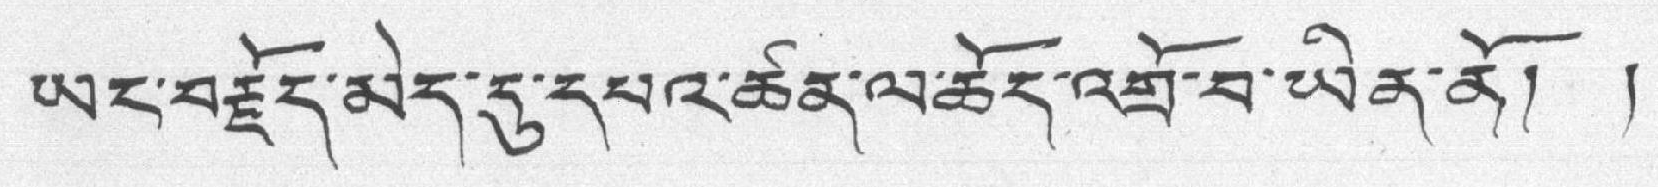ཡང་བརྗོད་མེད་དུ་དཔའ་ཚན་ལ་ཆོད་འགྲོ་བ་ཡིན་ནོ། །
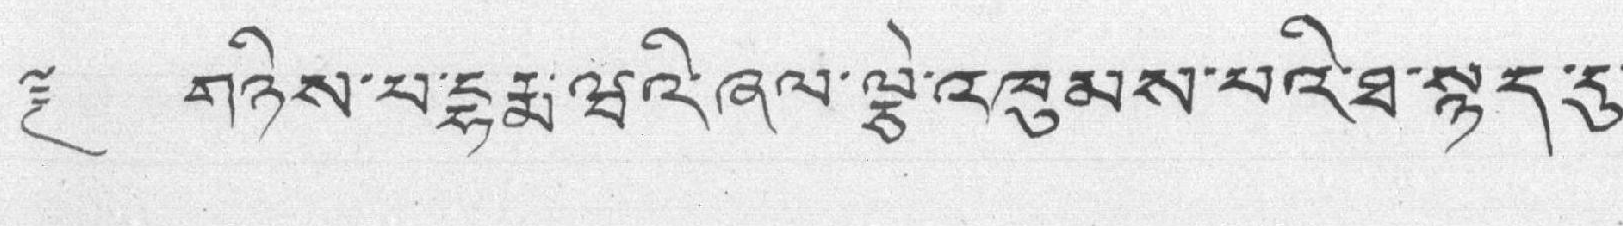༈ གཉིས་པ་དྷརྨ་ཝའི་ཞལ་ལྕེ་འཁུམས་པའི་ཐ་སྙད་དུ་
